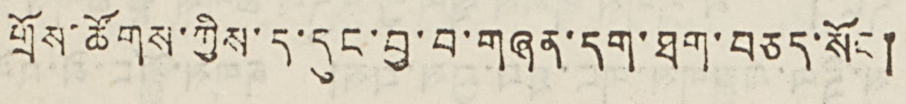གྲོས་ཚོགས་ཀྱིས་ད་དུང་བྱ་བ་གཞན་དག་ཐག་བཅད་སོང །
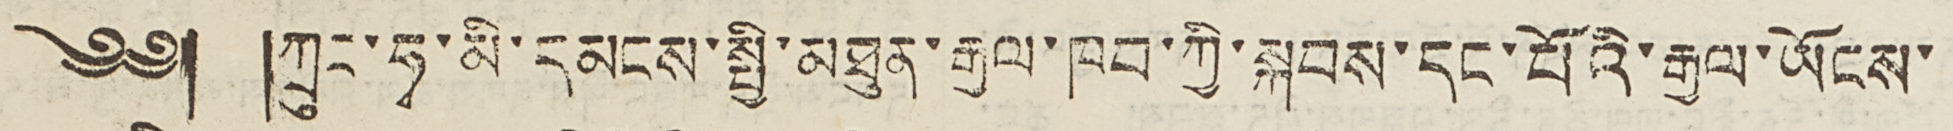༄༅། །ཀྲུང་ཧྭ་མི་དམངས་སྤྱི་མཐུན་རྒྱལ་ཁབ་ཀྱི་སྐབས་དང་པོའི་རྒྱལ་ཡོངས་
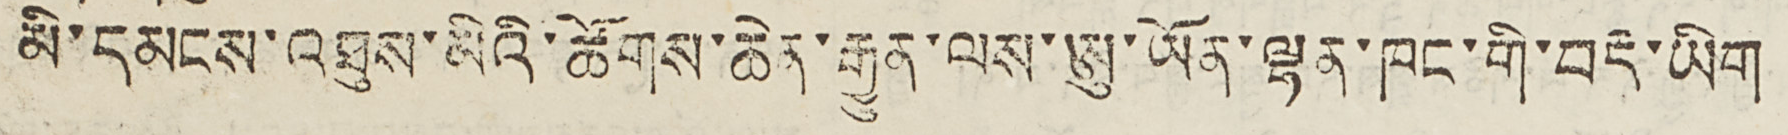མི་དམངས་འཐུས་མིའི་ཚོགས་ཆེན་རྒྱུན་ལས་ཨུ་ཡོན་ལྷན་ཁང་གི་བརྡ་ཡིག
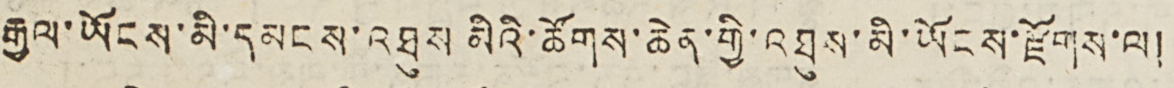རྒྱལ་ཡོངས་མི་དམངས་འཐུས མིའི་ཚོགས་ཆེན་གྱི་འཐུས་མི་ཡོངས་རྫོགས་ལ།
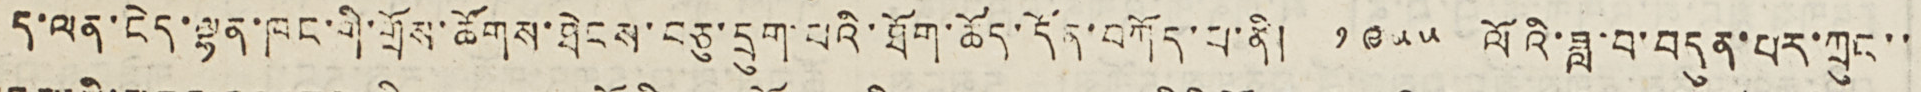ད་ལན་ངེད་ལྷན་ཁང་གི་གྲོས་ཚོགས་ཐེངས་བཅུ་དྲུག་པའི་ཐོག་ཆོད་དོན་བཀོད་པ་ནི། ༡༩༥༥ ལོའི་ཟླ་བ་བདུན་པར་ཀྲུང་་
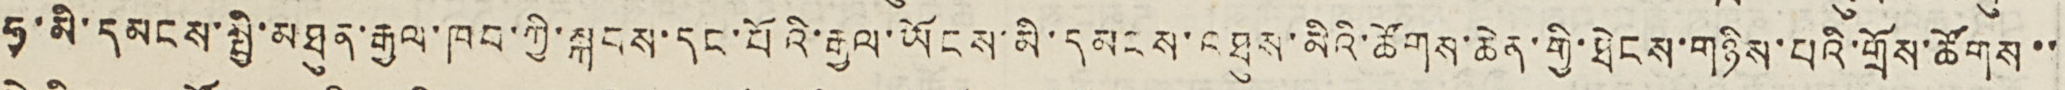ཧྭ་མི་དམངས་སྤྱི་མཐུན་རྒྱལ་ཁབ་ཀྱི་སྐབས་དང་པོའི་རྒྱལ་ཡོངས་མི་དམངས་འཐུས་མིའི་ཚོགས་ཆེན་གྱི་ཐེངས་གཉིས་པའི་གྲོས་ཚོགས་་
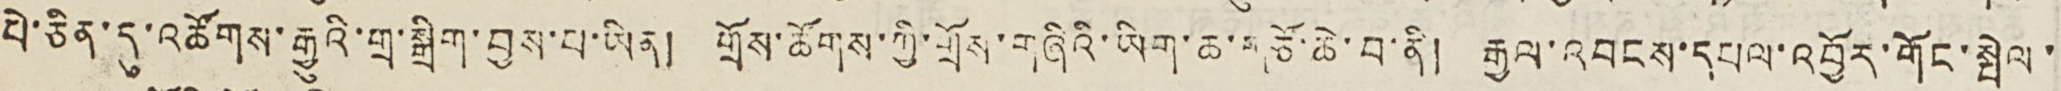པེ་ཅིན་དུ་འཚོགས་རྒྱུའི་གྲ་སྒྲིག་བྱས་པ་ཡིན། གྲོས་ཚོགས་ཀྱི་གྲོས་གཞིའི་ཡིག་ཆ་གཙོ་ཆེ་བ་ནི། རྒྱལ་འབངས་དཔལ་འབྱོར་གོང་སྤེལ་
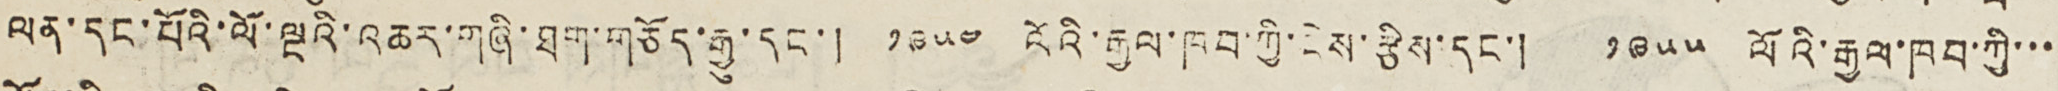ལན་དང་པོའི་ལོ་ལྔའི་འཆར་གཞི་ཐག་གཅོད་རྒྱུ་དང་། ༡༩༥༤ ལོའི་རྒྱལ་ཁབ་ཀྱི་ངེས་རྩིས་དང་། ༡༩༥༥ ལོའི་རྒྱལ་ཁབ་ཀྱི་་་
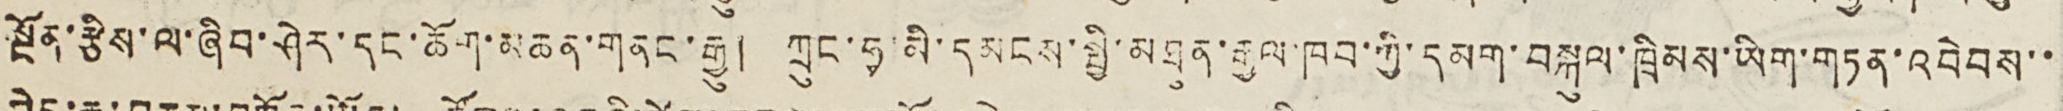སྔོན་རྩིས་ལ་ཞིབ་ཤེར་དང་ཆོག་མཆན་གནང་རྒྱུ། ཀྲུང་ཧྭ་མི་དམངས་སྤྱི་མཐུན་རྒྱལ་ཁབ་ཀྱི་དམག་བསྐུལ་ཁྲིམས་ཡིག་གཏན་འབེབས་་
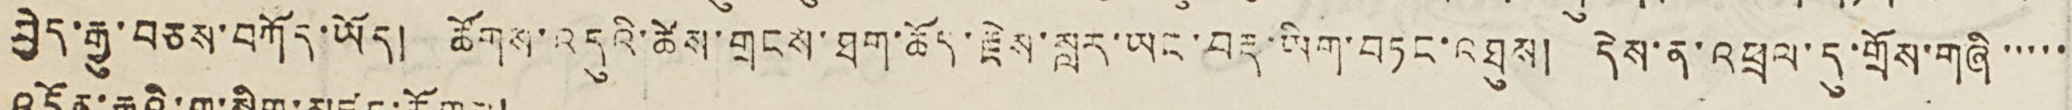བྱེད་རྒྱུ་བཅས་བཀོད་ཡོད། ཚོགས་འདུའི་ཚེས་གྲངས་ཐག་ཆོད་རྗེས་སླར་ཡང་བརྡ་ཡིག་བཏང་འཐུས། དེས་ན་འཕྲལ་དུ་གྲོས་གཞི་་་་་
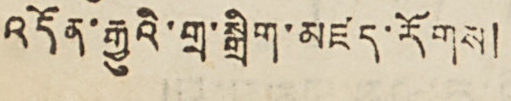འདོན་རྒྱུའི་གྲ་སྒྲིག་མཛད་རོགས།
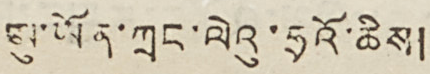ཨུ་ཡོན་ཀྲང་ལེའུ་ཧྲའོ་ཆིས།
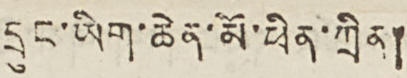དྲུང་ཡིག་ཆེན་མོ་ཕིན་ཀྲིན།
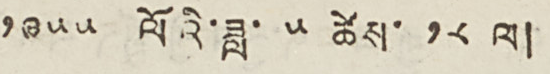༡༩༥༥་ལོའི་ཟླ་ ༥ ཚེས་ ༡༨ ལ།
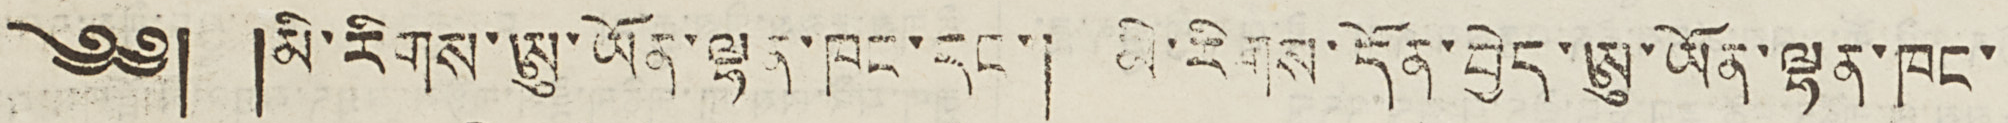༄༅། །མི་རིགས་ཨུ་ཡོན་ལྷན་ཁང་དང་། མི་རིགས་དོན་བྱེད་ཨུ་ཡོན་ལྷན་ཁང་
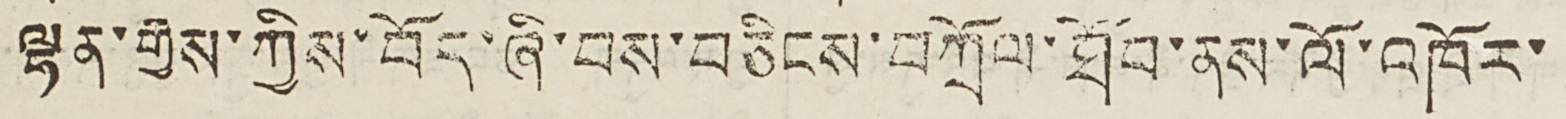ལྷན་གྱིས་ཀྱིས་བོད་ཞི་བས་བཅིངས་བཀྲོལ་ཐོབ་ནས་ལོ་འཁོར་
